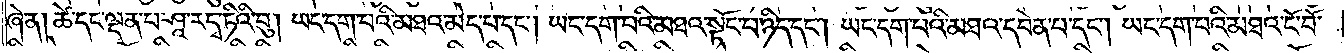ཞེ་ན། ཚེ་དང་ལྡན་པ་ཤཱ་རདྭ་ཏིའི་བུ། ཡང་དག་པའི་མཐའ་མེད་པ་དང༌། ཡང་དག་པའི་མཐའ་སྟོང་པ་ཉིད་དང༌། ཡང་དག་པའི་མཐའ་དབེན་པ་དང༌། ཡང་དག་པའི་མཐའ་ངོ་བོ་
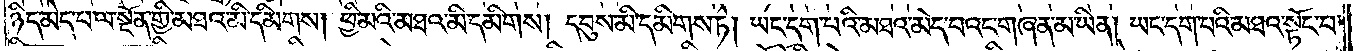ཉིད་མེད་པ་ལ་སྔོན་གྱི་མཐའ་མི་དམིགས། ཕྱི་མའི་མཐའ་མི་དམིགས། དབུས་མི་དམིགས་ཏེ། ཡང་དག་པའི་མཐའ་མེད་པའང་གཞན་མ་ཡིན། ཡང་དག་པའི་མཐའ་སྟོང་པ་
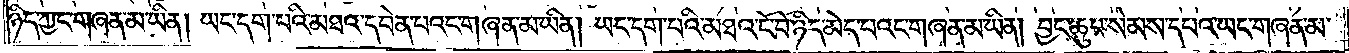ཉིད་ཀྱང་གཞན་མ་ཡིན། ཡང་དག་པའི་མཐའ་དབེན་པའང་གཞན་མ་ཡིན། ཡང་དག་པའི་མཐའ་ངོ་བོ་ཉིད་མེད་པའང་གཞན་མ་ཡིན། བྱང་ཆུབ་སེམས་དཔའ་ཡང་གཞན་མ་
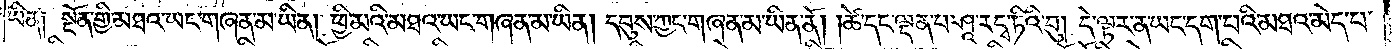ཡིན༑ སྔོན་གྱི་མཐའ་ཡང་གཞན་མ་ཡིན། ཕྱི་མའི་མཐའ་ཡང་གཞན་མ་ཡིན། དབུས་ཀྱང་གཞན་མ་ཡིན་ནོ། །ཚེ་དང་ལྡན་པ་ཤཱ་རདྭ་ཏིའི་བུ། དེ་ལྟར་ན་ཡང་དག་པའི་མཐའ་མེད་པ་
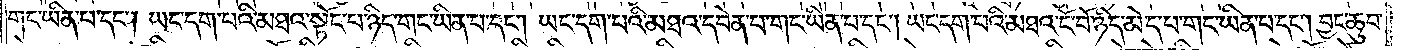གང་ཡིན་པ་དང༌། ཡང་དག་པའི་མཐའ་སྟོང་པ་ཉིད་གང་ཡིན་པ་དང༌། ཡང་དག་པའི་མཐའ་དབེན་པ་གང་ཡིན་པ་དང༌། ཡང་དག་པའི་མཐའ་ངོ་བོ་ཉིད་མེད་པ་གང་ཡིན་པ་དང༌། བྱང་ཆུབ་
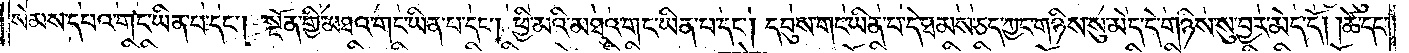སེམས་དཔའ་གང་ཡིན་པ་དང༌། སྔོན་གྱི་མཐའ་གང་ཡིན་པ་དང༌། ཕྱི་མའི་མཐའ་གང་ཡིན་པ་དང༌། དབུས་གང་ཡིན་པ་དེ་ཐམས་ཅད་ཀྱང་གཉིས་སུ་མེད་དེ་གཉིས་སུ་བྱར་མེད་དོ། །ཚེ་དང་
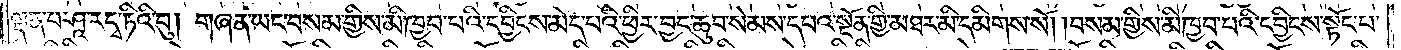ལྡན་པ་ཤཱ་རདྭ་ཏིའི་བུ། གཞན་ཡང་བསམ་གྱིས་མི་ཁྱབ་པའི་དབྱིངས་མེད་པའི་ཕྱིར་བྱང་ཆུབ་སེམས་དཔའ་སྔོན་གྱི་མཐར་མི་དམིགས་སོ། །བསམ་གྱིས་མི་ཁྱབ་པའི་དབྱིངས་སྟོང་པ་
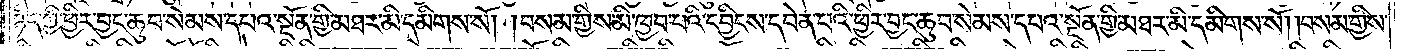ཉིད་ཀྱི་ཕྱིར་བྱང་ཆུབ་སེམས་དཔའ་སྔོན་གྱི་མཐར་མི་དམིགས་སོ། །བསམ་གྱིས་མི་ཁྱབ་པའི་དབྱིངས་དབེན་པའི་ཕྱིར་བྱང་ཆུབ་སེམས་དཔའ་སྔོན་གྱི་མཐར་མི་དམིགས་སོ། །བསམ་གྱིས་
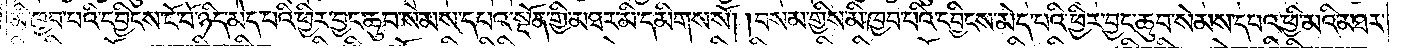མི་ཁྱབ་པའི་དབྱིངས་ངོ་བོ་ཉིད་མེད་པའི་ཕྱིར་བྱང་ཆུབ་སེམས་དཔའ་སྔོན་གྱི་མཐར་མི་དམིགས་སོ། །བསམ་གྱིས་མི་ཁྱབ་པའི་དབྱིངས་མེད་པའི་ཕྱིར་བྱང་ཆུབ་སེམས་དཔའ་ཕྱི་མའི་མཐར་
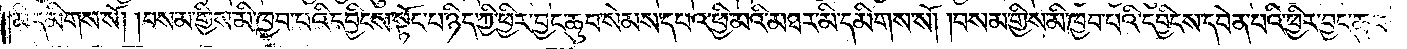མི་དམིགས་སོ། །བསམ་གྱིས་མི་ཁྱབ་པའི་དབྱིངས་སྟོང་པ་ཉིད་ཀྱི་ཕྱིར་བྱང་ཆུབ་སེམས་དཔའ་ཕྱི་མའི་མཐར་མི་དམིགས་སོ། །བསམ་གྱིས་མི་ཁྱབ་པའི་དབྱིངས་དབེན་པའི་ཕྱིར་བྱང་ཆུབ་
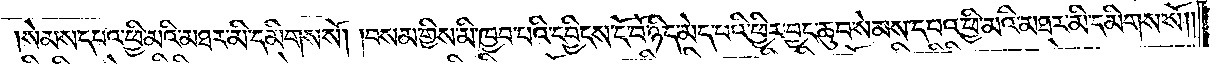སེམས་དཔའ་ཕྱི་མའི་མཐར་མི་དམིགས་སོ། །བསམ་གྱིས་མི་ཁྱབ་པའི་དབྱིངས་ངོ་བོ་ཉིད་མེད་པའི་ཕྱིར་བྱང་ཆུབ་སེམས་དཔའ་ཕྱི་མའི་མཐར་མི་དམིགས་སོ། །
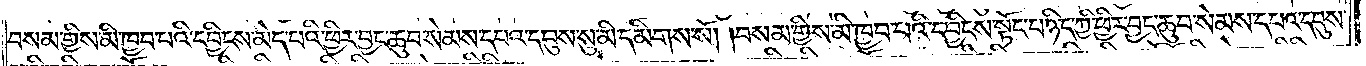བསམ་གྱིས་མི་ཁྱབ་པའི་དབྱིངས་མེད་པའི་ཕྱིར་བྱང་ཆུབ་སེམས་དཔའ་དབུས་སུ་མི་དམིགས་སོ། །བསམ་གྱིས་མི་ཁྱབ་པའི་དབྱིངས་སྟོང་པ་ཉིད་ཀྱི་ཕྱིར་བྱང་ཆུབ་སེམས་དཔའ་དབུས་
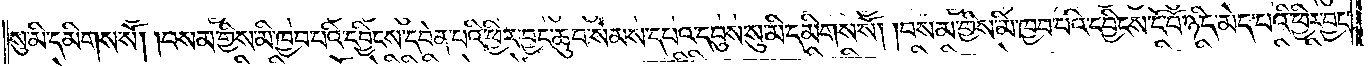སུ་མི་དམིགས་སོ། །བསམ་གྱིས་མི་ཁྱབ་པའི་དབྱིངས་དབེན་པའི་ཕྱིར་བྱང་ཆུབ་སེམས་དཔའ་དབུས་སུ་མི་དམིགས་སོ། །བསམ་གྱིས་མི་ཁྱབ་པའི་དབྱིངས་ངོ་བོ་ཉིད་མེད་པའི་ཕྱིར་བྱང་
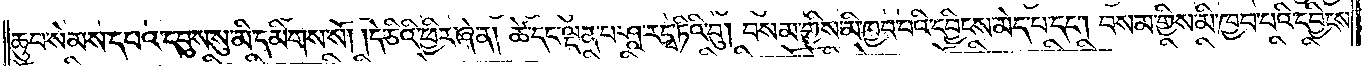ཆུབ་སེམས་དཔའ་དབུས་སུ་མི་དམིགས་སོ། །དེ་ཅིའི་ཕྱིར་ཞེ་ན། ཚེ་དང་ལྡན་པ་ཤཱ་རདྭ་ཏིའི་བུ། བསམ་གྱིས་མི་ཁྱབ་པའི་དབྱིངས་མེད་པ་དང༌། བསམ་གྱིས་མི་ཁྱབ་པའི་དབྱིངས་
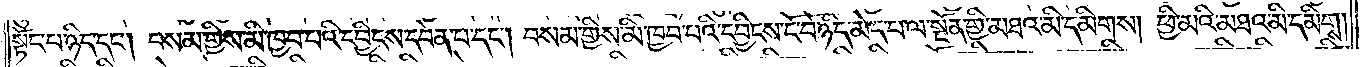སྟོང་པ་ཉིད་དང༌། བསམ་གྱིས་མི་ཁྱབ་པའི་དབྱིངས་དབེན་པ་དང༌། བསམ་གྱིས་མི་ཁྱབ་པའི་དབྱིངས་ངོ་བོ་ཉིད་མེད་པ་ལ་སྔོན་གྱི་མཐའ་མི་དམིགས། ཕྱི་མའི་མཐའ་མི་དམིགས།
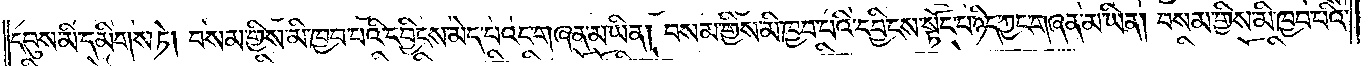དབུས་མི་དམིགས་ཏེ། བསམ་གྱིས་མི་ཁྱབ་པའི་དབྱིངས་མེད་པའང་གཞན་མ་ཡིན། བསམ་གྱིས་མི་ཁྱབ་པའི་དབྱིངས་སྟོང་པ་ཉིད་ཀྱང་གཞན་མ་ཡིན། བསམ་གྱིས་མི་ཁྱབ་པའི་
